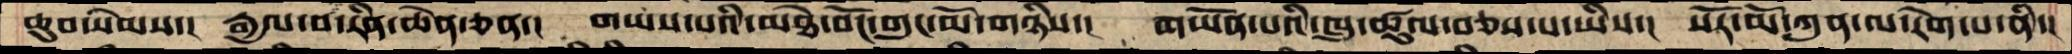ཆུབ་སེམས་།  རྒྱལ་བ་རིན་ཆེན་ཅན་།  གཡས་པའི་མཐེ་བོང་གུང་མོ་གཉིས་།  གཡོན་པའི་ཁུ་ཚུལ་བཅས་པ་ཡིས་།  སོར་མོ་ཀུན་ལ་རེག་པ་ནི་།
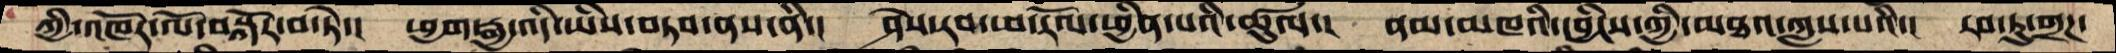ཀྱི་འཁོར་ལོ་བསྐོར་བ་ཏེ་།  ཕྱག་རྒྱ་འདི་ཡིས་བཏབ་ནས་ནི་།  ཤེས་རབ་ཕ་རོལ་ཕྱིན་པའི་ཚུལ་།  ནམ་མཁའི་དབྱིངས་ཀྱི་མཐའ་ཀླས་པའི་།  རབ་ཏུ་གྲཌ་
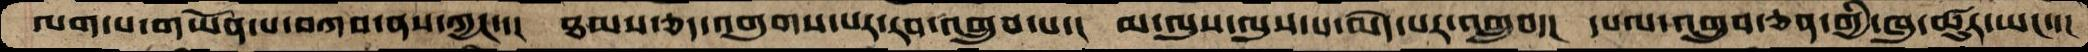ལག་པ་གཡོན་པ་བཀབ་ནས་ཀྱང་་།  ཐམས་ཅད་འགུགས་པར་རབ་འགྲུབ་པ་།  མ་ལུས་ལུས་པ་མེད་པར་འགྲུབ་།  དཔལ་འགྲུབ་ཅན་གྱི་ཁུ་ཚུར་ཡང་་།
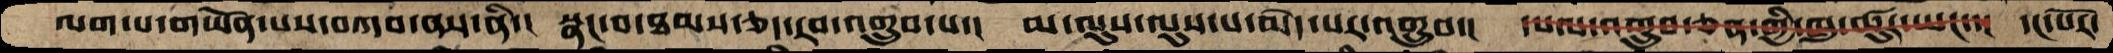ལག་པ་གཡོན་པས་བཀབ་ནས་ནི་།  སྣང་བ་ཐམས་ཅད་རབ་འགྲུབ་པ་།  མ་ལུས་ལུས་པ་མེད་པར་འགྲུབ་།  དཔལ་འགྲུབ་ཅན་གྱི་ཁུ་ཚུར་ཡང་་།  དང་པོར་
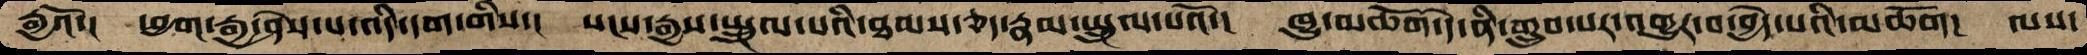རྒྱའོ་།  ཕྱག་རྒྱ་ཤེས་པ་འདི་དག་གིས་།  སངས་རྒྱས་སྤྲུལ་པའི་ཐམས་ཅད་རྣམ་སྤྲུལ་པའོ་།  ཁྱུ་མཆོག་དེ་ནི་གྲུབ་པར་འགྱུར་བ་བྱེད་པའི་མཆོག་།  ལས་
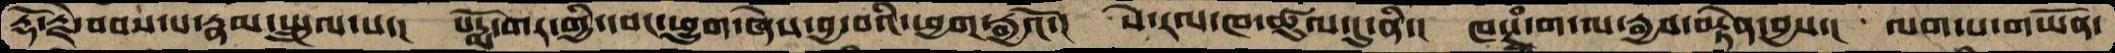རྡོ་རྗེ་བབས་པ་རྣམ་སྤྲུལ་པ་།  པདྨོ་གར་གྱི་དབང་ཕྱུག་ཞེས་བྱ་བའི་ཕྱག་རྒྱའོ་།  སེ་རལ་ཁ་ཚུལ་དུ་ནི་།  ཁ་ཊྭཾ་ག་ལ་རྒྱབ་བརྟེན་བྱས་།  ལག་པ་གཡོན་
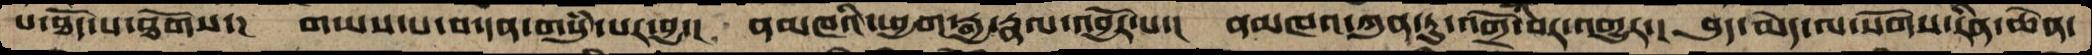པ་ཐོད་པ་ཐོགས་།  གཡས་པ་བ་དན་གསུཾ་པར་བྱ་།  ནམཁའི་ཕྱག་རྒྱ་རྣལ་འབྱོར་པ་།  ནམཁའ་ཀུན་ཏུ་འགྲོ་བར་འགྱུར་།  བུད་མེད་ལ་སོགས་རིན་ཆེན་
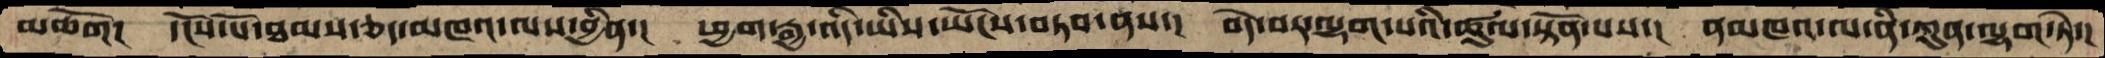མཆོག།  དངོས་པོ་ཐམས་ཅད་མཁའ་ལས་བྱིན་།  ཕྱག་རྒྱ་འདི་ཡིས་ཡོངས་བཏབ་ནས་།  བདེ་བར་ལྷག་པའི་ཚུལ་སྟོན་པས་།  ནམ་མཁའ་ལ་ནི་ཀུན་ལྷག་ཏེ་།
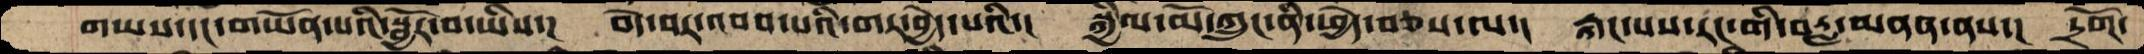གཡས་དང་གཡོན་པའི་སྦྱོར་བ་ཡིས་།  བདེ་བར་འབབ་པའི་གར་བྱེད་པའི་།  སྐྱིལ་མོ་ཀྲུང་ནི་ཕྱེད་བཅས་ལ་།  རྐང་པས་རང་གི་བརླ་མནན་ནས་།  དྲགོ་
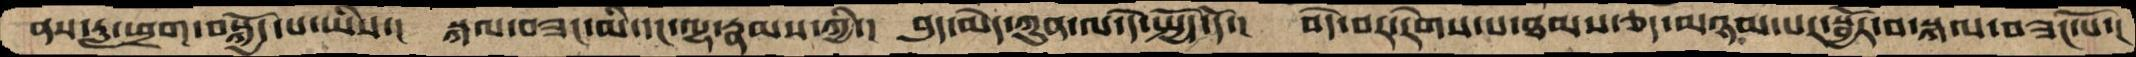ནས་རླ་ཕྲག་བསྐྱོད་པ་ཡིས་།  སྐལ་བཟང་མི་དང་ལྷ་རྣམས་ཀྱི་།  བུད་མེད་ཀུན་ལ་དེ་སྤྱོད་དོ་།  བདེ་བར་རེགས་པ་ཐམས་ཅད་མཉམ་པར་སྦྱོར་བ་སྐལ་བཟང་པོ་།
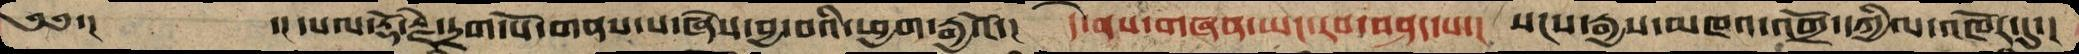༄༅་།         ་།དཔལ་རྡོ་རྗེ་དྲག་པོ་གནས་པ་ཞེས་བྱ་བའི་ཕྱག་རྒྱའོ་།  དེ་ནས་གཞན་ཡང་རབ་བཤད་པ་།  སངས་རྒྱས་མཁའ་འགྲོ་དཀྱིལ་འཁོར་དུ་།
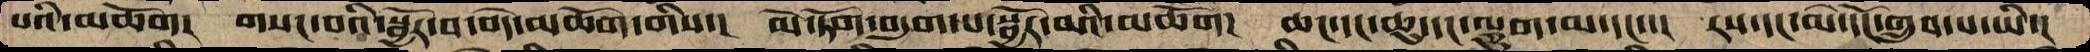པའི་མཆོག།  གསང་བའི་སྦྱོར་བ་བདེ་མཆོག་གིས་།  མེ་ཏོག་བདུག་པ་སྦྱོར་མའི་མཆོག།  ཆང་དང་ཆུ་དང་ལྕུག་མ་དང་་།  རས་དང་མེ་དངོ་གྲུབ་པ་ཡི་།
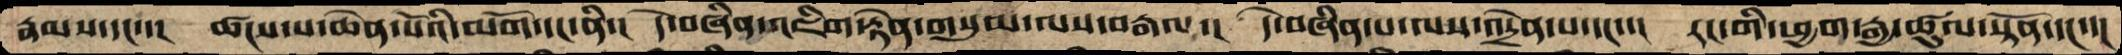རྣམས་དང་་།  ཚངས་པ་ཆེན་པོའི་མགོ་དང་ནི་།  དེ་བཞིན་འཇིག་རྟེན་གསུམ་ལས་བརྒལ་།  དེ་བཞིན་པ་ལས་འདྲེན་པ་དང་་།  རང་གི་ཕྱག་རྒྱ་ཚུལ་སྟོན་དང་་།
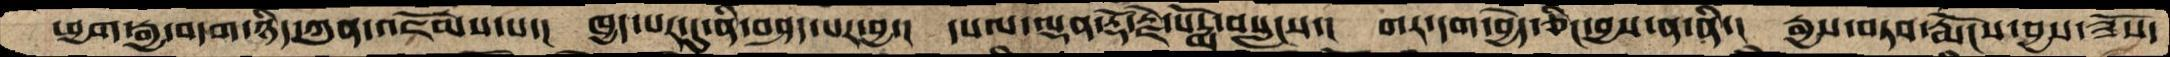ཕྱག་རྒྱ་བདག་ཉིད་ཀུན་འཇོམས་པ་།  ཁྱད་པར་དུ་ནི་བཤད་པར་བྱ་།  དཔལ་ལྡན་རྡོ་རྗེ་པདྨོ་བསླངས་།  གར་དག་བྱེད་ཅིང་བྱས་ན་ནི་།  རྒྱས་བཏབ་རྨོངས་བྱས་ཟོས་
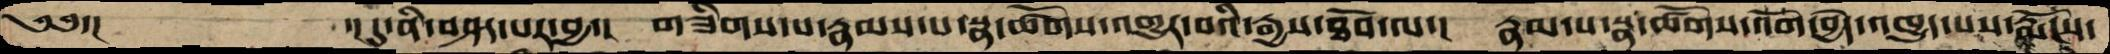༄༅་།          ་།དུ་ནི་བཤད་པར་བྱ་།  གཟིགས་པ་རྣམས་པ་སྣ་ཚོགས་འགྱུར་བའི་རྒྱས་ཐོབ་ལ་།   རྣམ་པ་སྣ་ཚོགས་འོག་བྱེད་འཁྱུད་པས་རྨོངས་
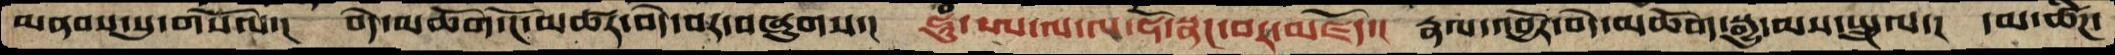མནབས་སུ་གསོལ་།  བདེ་མཆོག་ངོ་མཚར་བདེ་བར་བཞུགས་།  ཧཱུཾ་ཨ་ལ་ལ་ཧོ་སྣང་བར་མཛོད་།  རྣལ་འབྱོར་བདེ་མཆོག་སྒྱུ་མས་སྤྲུལ་།  དམ་ཚིཌ་
